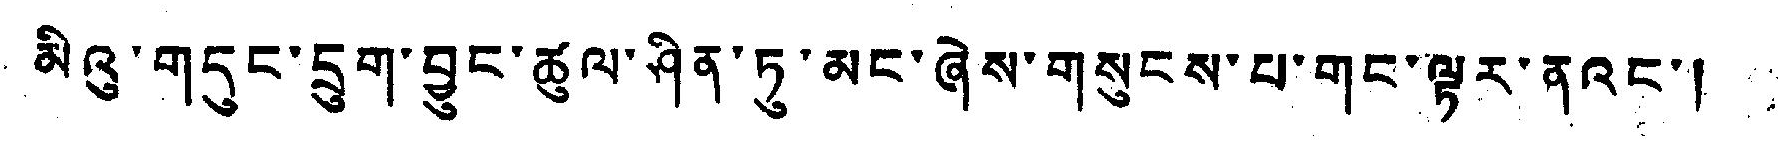མིའུ་གདུང་དྲུག་བྱུང་ཚུལ་ཤིན་ཏུ་མང་ཞེས་གསུངས་པ་གང་ལྟར་ནའང་།
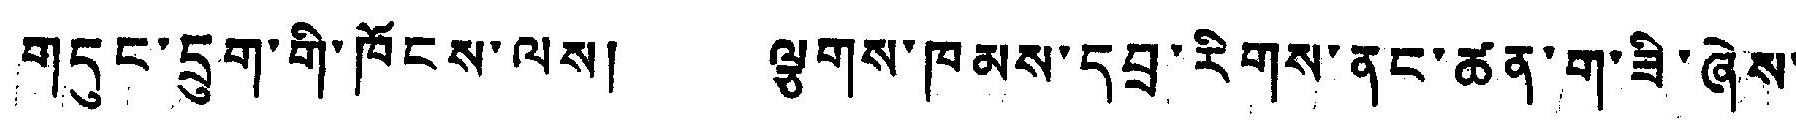གདུང་དྲུག་གི་ཁོངས་ལས། ལྕགས་ཁམས་དབྲ་རིགས་ནང་ཚན་ག་ཟི་ཞེས་
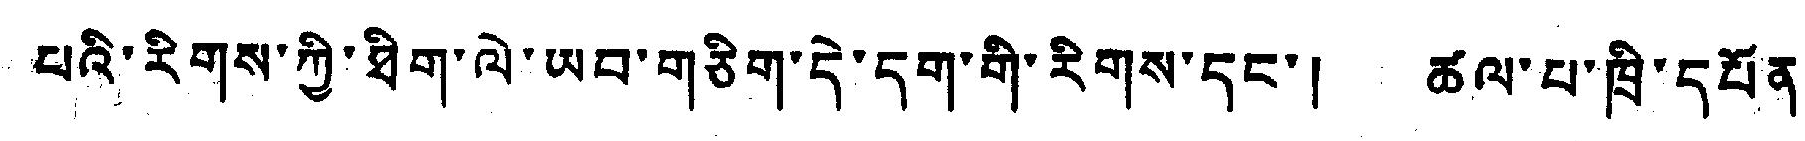པའི་རིགས་ཀྱི་ཐིག་ལེ་ཡབ་གཅིག་དེ་དག་གི་རིགས་དང་། ཚལ་པ་ཁྲི་དཔོན་
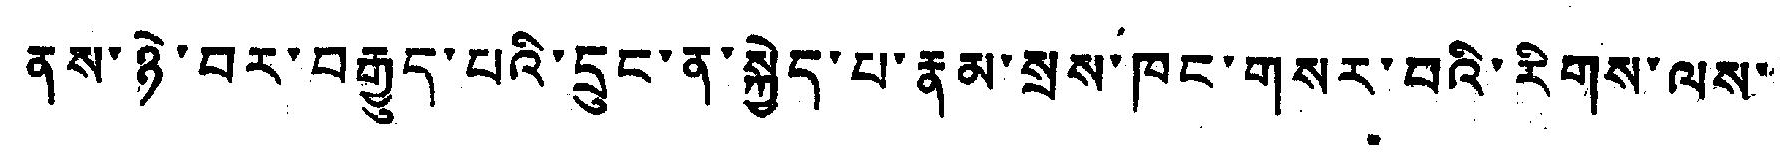ནས་ཉེ་བར་བརྒྱུད་པའི་དྲུང་ན་སྐྱེད་པ་རྣམ་སྲས་ཁང་གསར་བའི་རིགས་ལས་་
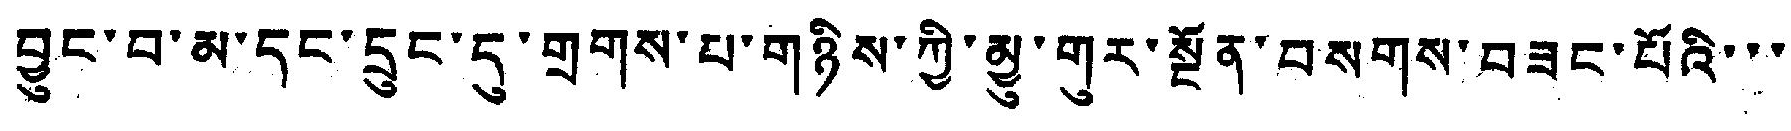བྱུང་བ་མ་དང་དྲུང་དུ་གྲགས་པ་གཉིས་ཀྱི་མྱུ་གུར་སྔོན་བསགས་བཟང་པོའི་་་
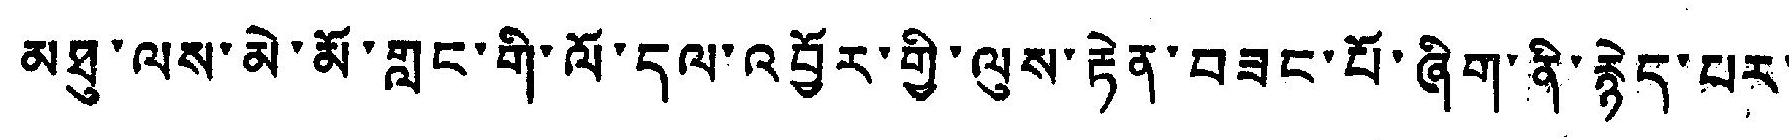མཐུ་ལས་མེ་མོ་གླང་གི་ལོ་དལ་འབྱོར་གྱི་ལུས་རྟེན་བཟང་པོ་ཞིག་ནི་རྙེད་པར་
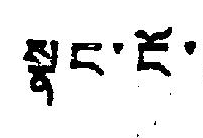སྣང་ངོ་།
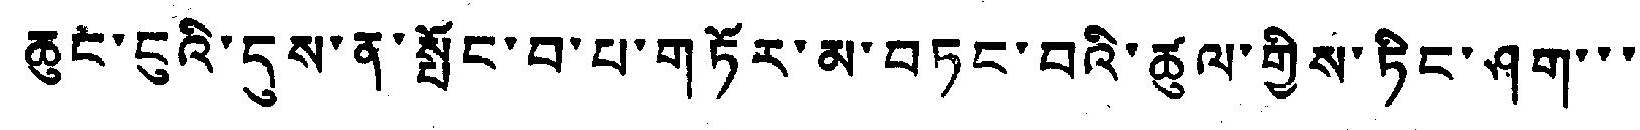ཆུང་ངུའི་དུས་ན་སྤོང་བ་པ་གཏོར་མ་བཏང་བའི་ཚུལ་གྱིས་ཉིང་ཤག་་་
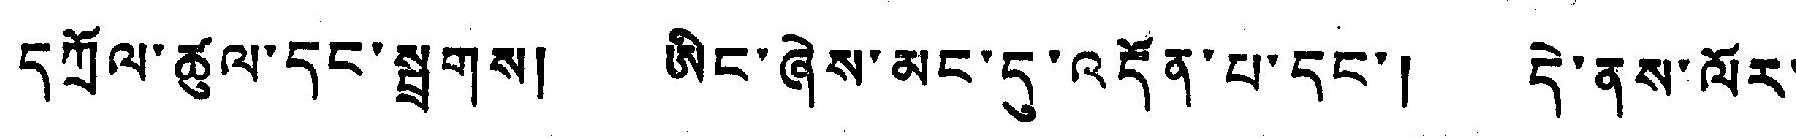དཀྲོལ་ཚུལ་དང་སྦྲགས། ཞིང་ཞེས་མང་དུ་འདོན་པ་དང་། དེ་ནས་ལོར་
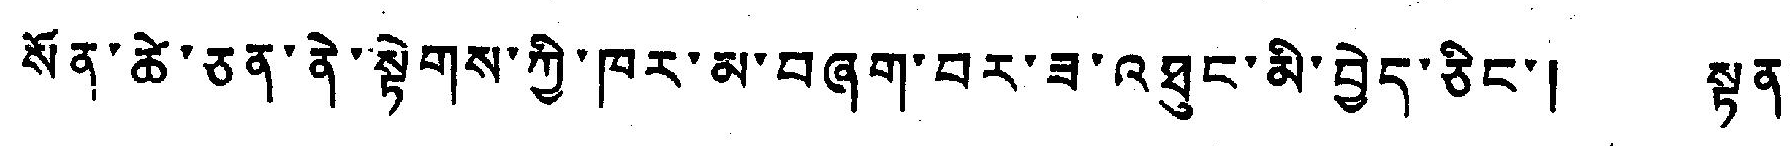སོན་ཚེ་ཅན་ནེ་སྟེགས་ཀྱི་ཁར་མ་བཞག་བར་ཟ་འཐུང་མི་བྱེད་ཅིང་། སྙན་
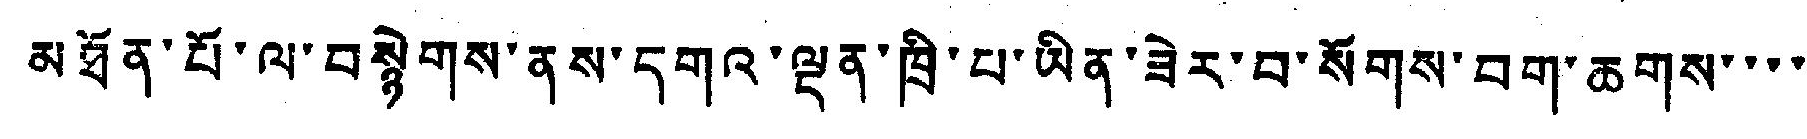མཐོན་པོ་ལ་བསྟེགས་ནས་དགའ་ལྡན་ཁྲི་པ་ཡིན་ཟེར་བ་སོགས་བག་ཆགས་་་་
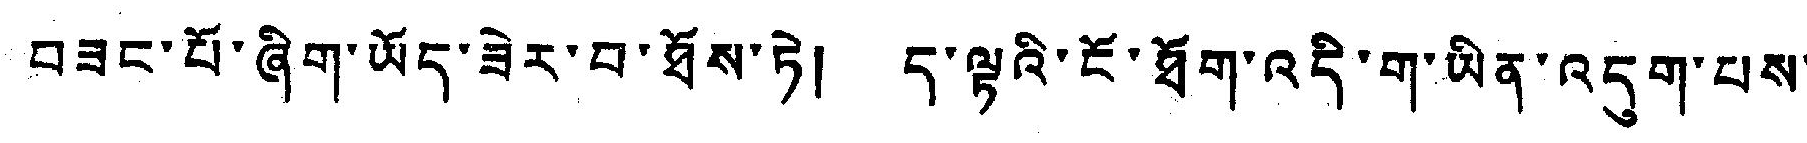བཟང་པོ་ཞིག་ཡོད་ཟེར་བ་ཐོས་ཏེ། ད་ལྟའི་ངོ་ཐོག་འདི་ག་ཡིན་འདུག་པས་
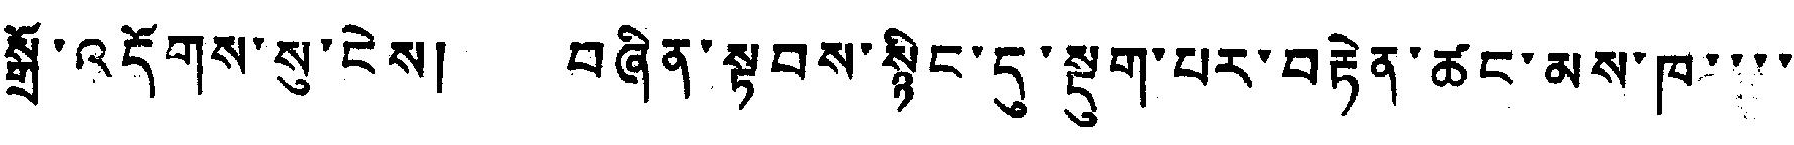སྒྲོ་འདོགས་སུ་ངེས། བཞིན་སྟབས་སྙིང་དུ་སྡུག་པར་བརྟེན་ཚང་མས་ཁ་་་་
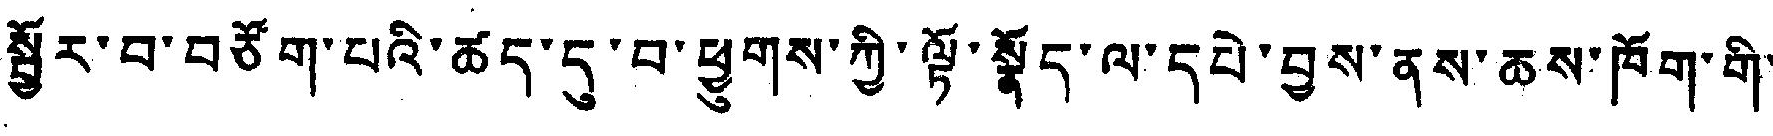སྦྱོར་བ་བཙོག་པའི་ཚད་དུ་བ་ཕྱུགས་ཀྱི་ལྟོ་སྣོད་ལ་དཔེ་བྱས་ནས་ཆས་ཁོག་གི་
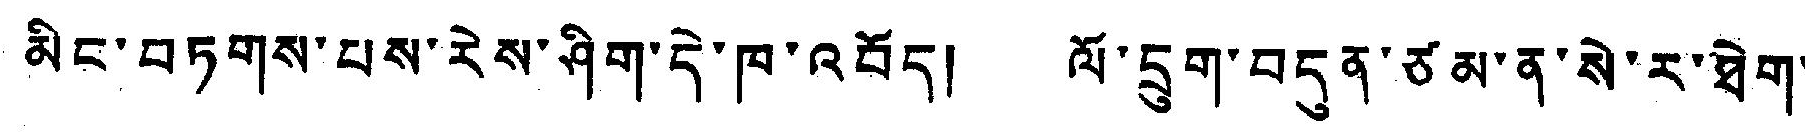མིང་བཏགས་པས་རེས་ཤིག་དེ་ཁ་འབོད། ལོ་དྲུག་བདུན་ཙམ་ན་སེ་ར་ཐེག་་
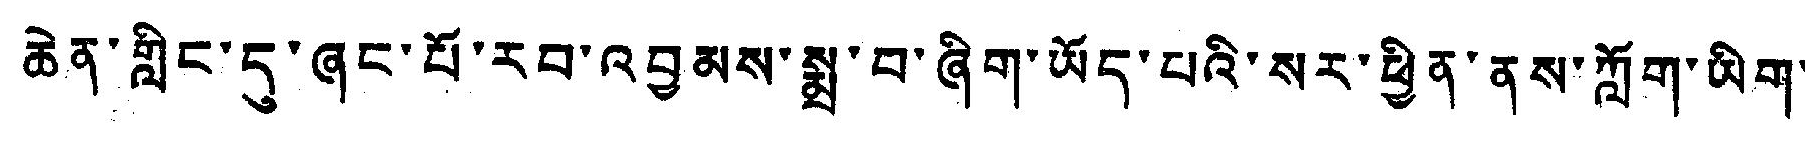ཆེན་གླིང་དུ་ཞང་པོ་རབ་འབྱམས་སྨྲ་བ་ཞིག་ཡོད་པའི་སར་ཕྱིན་ནས་ཀློག་ཡིག་
